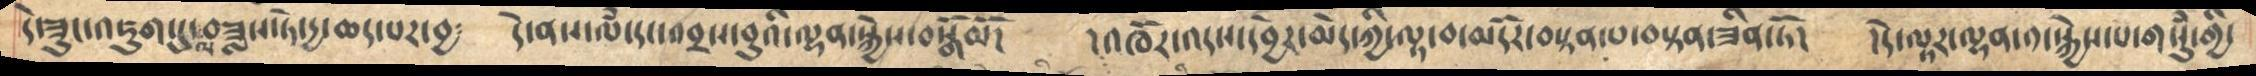དེ་ཟུང་འཇུག་དུ་ལ་བཟླས་ཏེ་དྱ་ཆད་པར་བྱ༴   དེ་ནས་ལཾ་དང་འབྲས་བུའི་ལྷན་སྐྱེས་བསྒོམོ།  །འཁོར་འདས་དབྱེར་མེད་ཀྱི་ལྟ་བ་མདོར་བསྟན་པ་བསྟན་ཟིན་ཏོ།  །དེ་ལྟར་ལྷན་༡་སྐྱེས་པ་གསུཾ་གྱི་
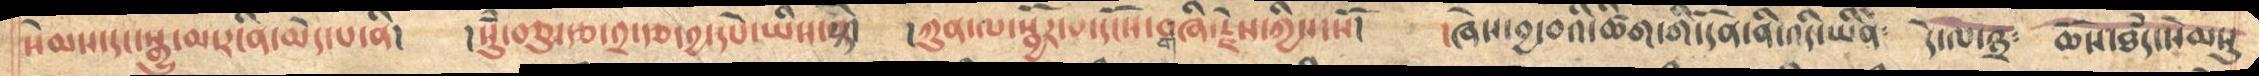སེམས་དང་སྒྱུ་མ་རངིན་མེད་པ་ནི།  །སུཾ་བཅུ་རྩ་༢་རྩ་༤་དཔེ་ཡིས་སྟེ།  །ཀུན་ལ་སྦྱོར་པ་དངོས་གཞི་རྗེས་ཀྱིས་སོ།  །ཞེས་བྱ་བའི་ཚིག་གི་དོན་ནི་འདི་ཡིན༴  དེ་ལ་༣༴ ཆོས་ཐཾད་སེམསུ
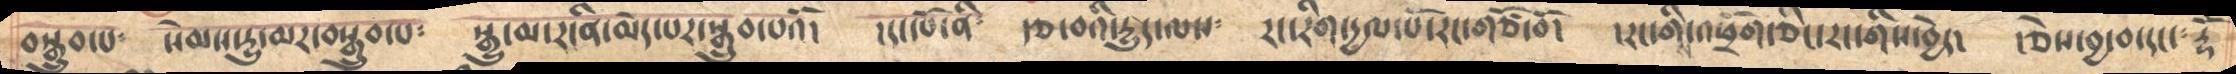བསྒྲུབ་པ༴   སེམས་དྱུ་མར་བསྒྲུབ་པ༴  སྒྱུ་མ་རངིན་མེད་པར་སྒྲུབ་པའོ།  །དང་པོ་ནི༴  རྩ་བའི་དྱུད་ལས༴ རང་རིག་དྱལ་པོ་རང་གཙོ་བོ།  །རང་གིས་འཕྲོག་ཅིང་རང་གིས་བྱེད།  །ཅེས་བྱ་བ་དང་༴  རྡོེ་
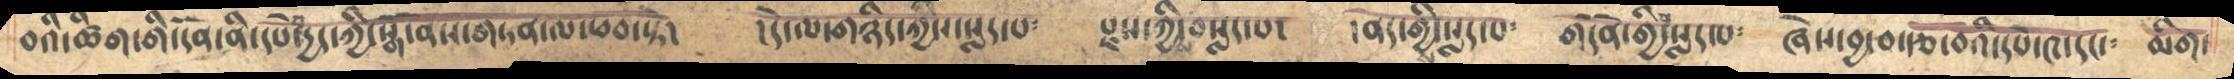བའི་ཚིག་གི་དོན་ནི་དཔེ་བདྱད་ཀྱི་སྒོ་ནས་གཏན་ལ་ཕབ་སྟེ།    །དེ་ལ་གཉིད་ཀྱིས་སླད་པ༴  སྫས་ཀྱིས་བསླད་པ་  །ནོར་གྱིས་སླད་པ༴  གདོན་གྱིས་སླད་པ༴  ཞེས་བྱ་བ་རྩ་བའི་དཔེ་༩་དང་༴ མིག་
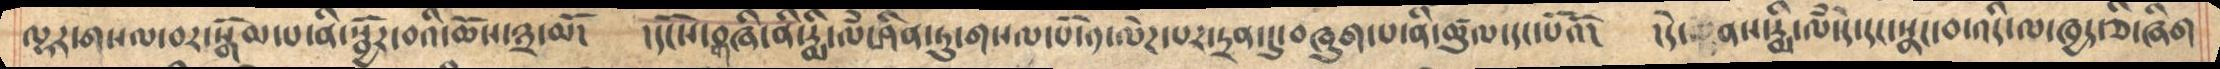ལྷར་གསལ་བར་སྒོམ་པ་ནི་སྦྱོར་བའི་ཆོས་༣་མོ།  །དངོས་གཞི་ནི་རྨི་ལཾ་ཤིན་ཏུ་གསལ་པོ་༡་ལེཌ་པར་དྲན་དུ་བཞུག་པ་ནི་ཚུལ་དང་པོའོ།  །དེ་ནས་རྨི་ལཾ་དེ་དང་སྣང་བ་འདི་ལ་ཁྱད་ཅི་ཞིག
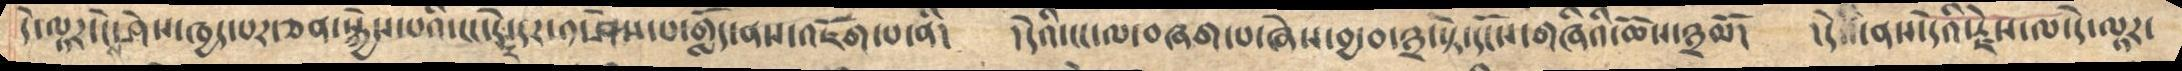དེ་ལྟར་ངེས་ཤེས་ཁྱད་པར་ཅན་སྐྱེས་པའི་ངང་དེར་དར་༡་ཤེས་པ་གློད་ནས་འཇོག་པ་ནི།  །དེའི་ངང་ལ་བཞག་པ་ཞེས་བྱ་བ་༣་སྟེ་དངོས་གཞིའི་ཆོས་༣མོ།  །དེ  ་ནས་དེའི་རྗེས་ལ་དེ་ལྟར་
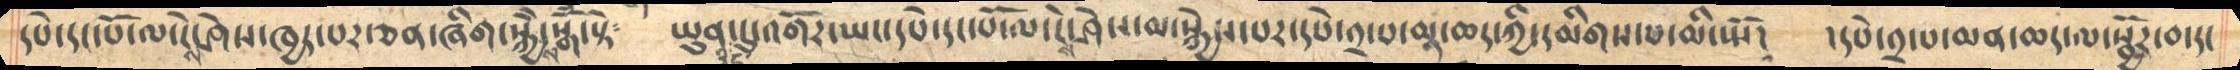དཔེ་དང་པོ་ལ་ངེས་ཤེས་ཁྱད་པར་ཅན་ཞིག་སྐྱེས་སྒོཾ་སྟེ༴་   ཡུན་ཉིད་དུ་འགོར་ཡང་དཔེ་དང་པོ་ལ་ངེས་ཤེས་མ་སྐྱེས་པར་དཔེ་༢་པ་མན་ཆད་ཀྱི་དམིགས་པ་མི་སྤོ།   །དཔེ་༢་པ་མན་ཆད་ལ་སྦྱོར་བ་དང
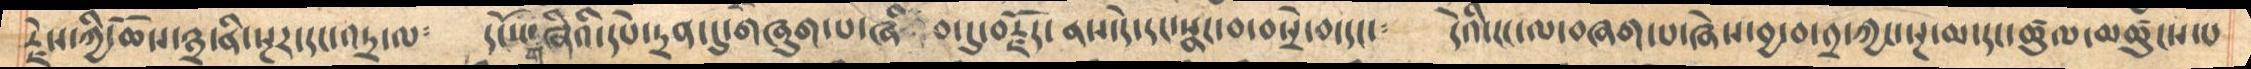རྗེས་ཀྱི་ཆོས་༣་ནི་སྔར་དང་འདྲ་ལ༴     དངོས་གཞིའི་དཔེ་དྲན་དུ་གཞུག་པ་ཞིབ་དུ་བརྗོད་ནས་དེ་དང་སྣང་བ་བསྲེ་བ་དང་༴   དེའི་ངང་ལ་བཞག་པ་ཞེས་བྱ་བ་༢་ཀྱང་སྔ་མ་དང་ཚུལ་མཚུངས་པ
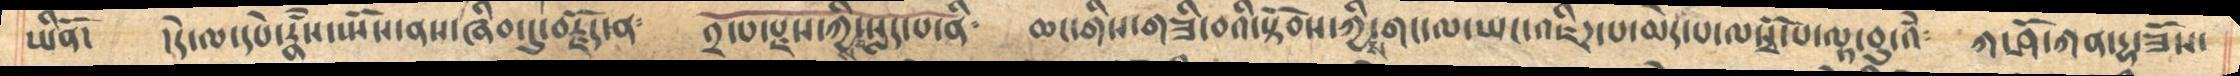ཡིནོ།  །དེ་ལ་དཔེ་རྣཾས་སྤོས་ནས་ཞིབ་དུ་བརྗོད་ན༴   ༢་པོ་སྫས་ཀྱིས་བསླད་པ་ནི༴  ཆང་གིས་གཟི་བའི་སྟོབས་ཀྱིས་གང་ལ་ཡང་འཇིཌ་པ་མེད་པ་ལསྭོ་པ་ལྟ་བུ་འཾ༴ ཀ་ཤོ་ཀན་དྷ་ཟོས་
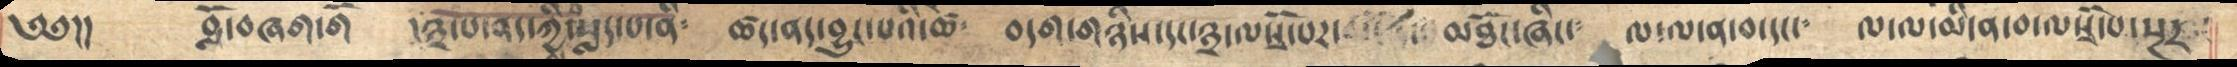༄༅།།   བློ་བཞག་གོ    །༣་པ་ནད་ཀྱིས་བསླད་པ་ནི༴  ཚད་ནད་བྱུང་པའི་ཚེ༴   བདག་གཉིས་དང་༣་ལསྭོ་པར་   མཐོང་ཞིང་༴  ལ་ལ་ན་བ་དང་༴  ལ་ལ་མི་ན་བ་ལསྭོ་པ་སྔར
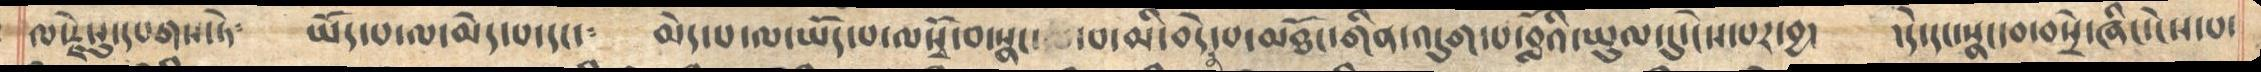ལ་རྗེསུ་དཔགས་ཏེ༴   ཡོད་པ་ལ་མེད་པ་དང་༴  མེད་པ་ལ་ཡོད་པ་ལསྭོ་བ་སྣང་ བ་མི་བདེན་པ་མཐོང་གིན་འདུག་པ་བློའི་ཡུལ་དུ་ངེས་པར་བྱ།  །དེ་དང་སྣང་བ་བསྲེ་ཞིང་ངེས་པ་
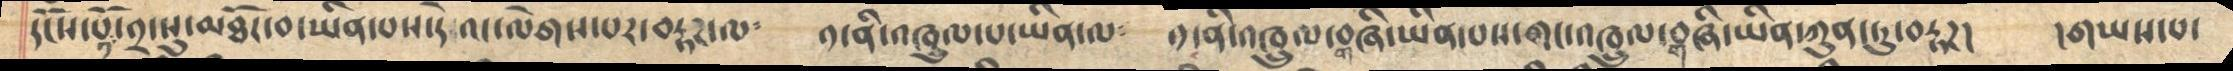དངོས་པོ་༢་སུ་མཐོང་བ་ཡིན་པས་དེ འང་ལེགས་པར་བརྟཌ་ལ༴   ༡་ནི་འཁྲུལ་པ་ཡིན་ལ༴  ༡་ནི་འཁྲུལ་གཞི་ཡིན་པས་གང་འཁྲུལ་གཞི་ཡིན་ཀུན་ཏུ་བརྟཌ།  །གཡས་པ་
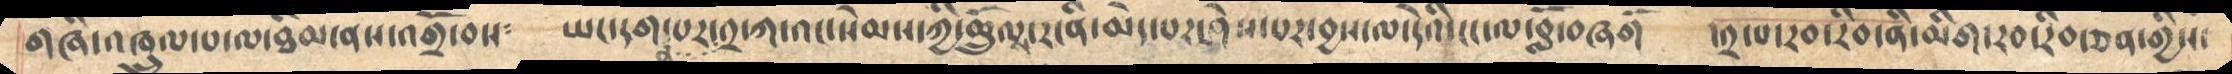གཞི་འཁྲུལ་པ་ལ་ཐིམ་ནས་འགྲོ་བས༴   ཡང་དག་པར་༢་ཀ་འང་སེམས་ཀྱི་ཆྲོུལས་རངིན་མེད་པར་ཤེས་པར་བྱས་ལ་དེའི་ངང་ལ་བློ་བཞགོ    །༢་པ་རབ་རིབ་ནི་མིག་རབ་རིབ་ཅན་གྱིས་
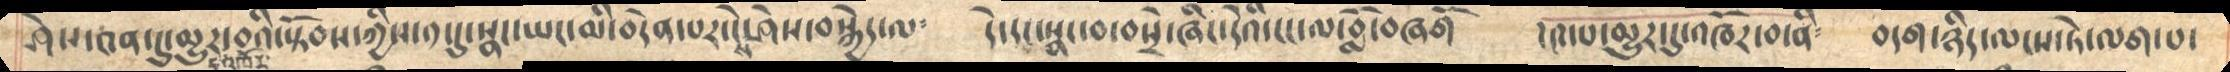ཤེས་༤ན་དུ་མྱུར་དུ་འཁོར་བའི་སྟོབས་ཀྱིས་༡་དུ་སྣང་ཡང་མི་བདེན་པར་ངེས་ཤེས་བསྐྱེད་ལ༴ དེ་དང་སྣང་བ་བསྲེ་ཞིང་དེའི་ངང་ལ་བློ་བཞགོ   །༤་པ་མྱུར་དུ་འཁོར་བ་ནི༴  བདག་ཉིད་ལངས་ཏེ་ལག་པ་
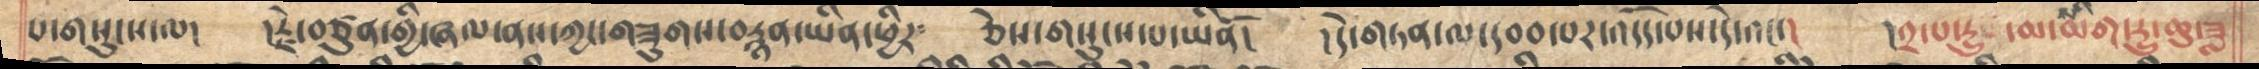པ་གསུངས་ལ།     །རྗེ་བཙུན་གྱི་ཞལ་ནས་ཀྱང་གཟུགས་བརྙན་ཡིན་ཕྱིར༴    ཅེས་གསུངས་པ་ཡིནོ།    །དེ་གཏན་ལ་དབབ་པར་འདོད་པས་དེ་འང་།   །༢་པ་རྒྱུ་དམ་ཚིག་དྱུ་ཆུ་ཟླ
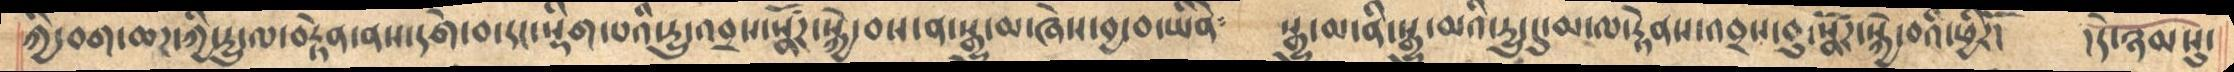ཀྱི་བག་ཆཌ་ཀྱི་དྱུ་ལ་བརྟེན་ནས་དགེ་བ་དང་སྡིག་པའི་རྒྱུ་འབྲས་སྣཚོཌ་སྐྱེ་བས་ན་སྒྱུ་མ་ཞེས་བྱ་བ་ཡིནོ༴    སྒྱུ་མ་ནི་སྒྱུ་མའི་དྱུ་དུ་མ་ལ་རྟེནས་འབྲས་བུ་སྣཚོཌ་སྐྱེ་བའི་ཕྱིརོ།   །དེ་ཉམསུ་
